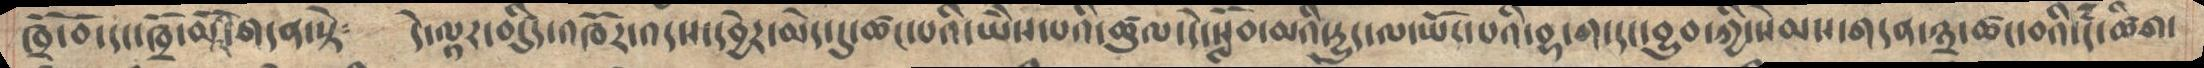ཁྲོ་བོ་དང་ཁྲོ་མོའི་གདན་སྟེ༴   དེ་ལྟར་བདུདརྩི་འཁོར་འདས་དབྱེར་མེད་དུ་ཚང་པའི་ཡཻས་པའི་ཚུལ་དེ་སློབ་མའི་དྱུད་ལ་ཡོད་པའི་བྷ་ག་དང་བྱུབ་ཀྱི་སེམས་གདན་༣་ཚང་བའི་དཾ་ཚིག་
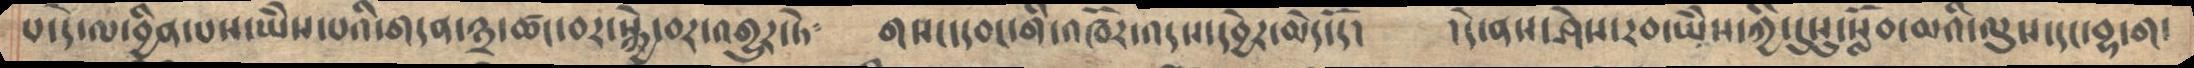པ་དེ་ལ་བྱིན་པས་ཡེེས་པའི་གདན་༣་ཚང་བར་སྐྱེ་བར་འགྱུར་ཏེ༴    གསང་དབང་གི་འཁོར་འདས་དབྱེར་མེད་དོ།    །དེ་ནས་ཤེས་རབ་ཡེེས་ཀྱི་དུསུ་སློབ་མའི་ལུས་དང་བྷ་ག་
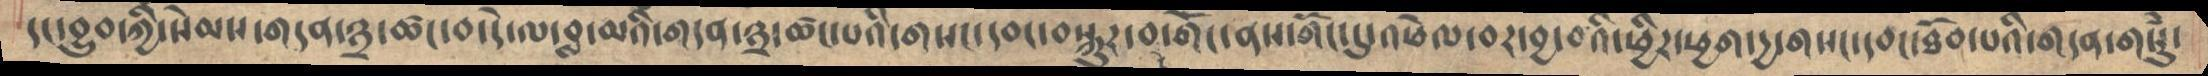དང་བྱུབ་ཀྱི་སེམས་གདན་༣༌་ཚང་བ་དེ་ལ་བླ་མའི་གདན་༣་ཚང་པའི་གསང་དབང་བསྐུར་བ་གོང་ནས་གོང་དུ་འཔེལ་བར་བྱ་བའི་ཕྱིར་ཕྱག་དྱ་གསང་དབང་ཐོབ་པའི་གདན་གསུཾ་
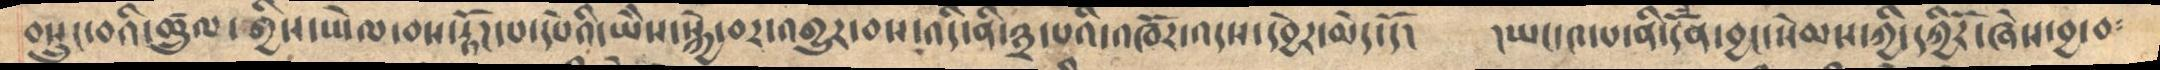བསྲུང་བའི་ཚྲུལ་གྱིས་ཡེལ་བས་རྟོཌ་པ་དཔེའི་ཡེེས་སྐྱེ་བར་འགྱུར་བས་འདི་ནི་༣་པའི་འཁོར་འདས་དབྱེར་མེད་དོ།    །ཡང་༤་པ་ནི་དོཾན་བྱང་སེམས་ཀྱི་དཀྱིོར་ཞེས་བྱ་བ༴
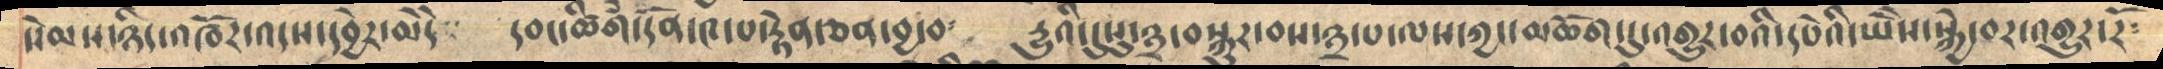སེམས་ཉིད་འཁོར་འདས་དབྱེར་མེདེ   དབང་ཚིག་དོན་༤་པ་རྟེན་ཅན་བྱ་བ༴   དྱུའི་དུསུ་༣་བསྐུར་བས་༣་པ་ལས་ཀྱང་མཆོག་དུ་འགྱུར་བའི་དཔེའི་ཡེེས་སྐྱེ་བར་འགྱུར་རོ༴
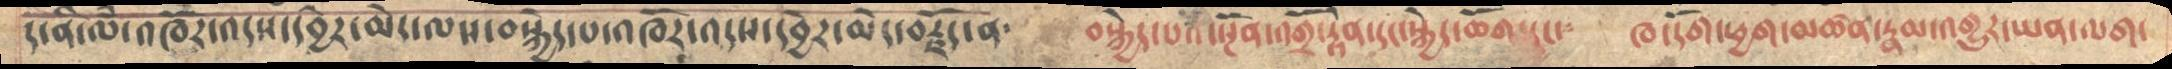ད་ནི་ལཾ་འཁོར་འདས་དབྱེར་མེད་ལས་བསྐྱེད་པ་འཁོར་འདས་དབྱེར་མེད་བརྗོད་ན༴     བསྐྱེད་པའི་སྔོན་འགྲོ་རྟེན་དང་སྐྱེད་ཆོག་དང་༴    ཁ་དོག་ཕྱག་མཚན་རྣམ་འགྱུར་ཡན་ལག་
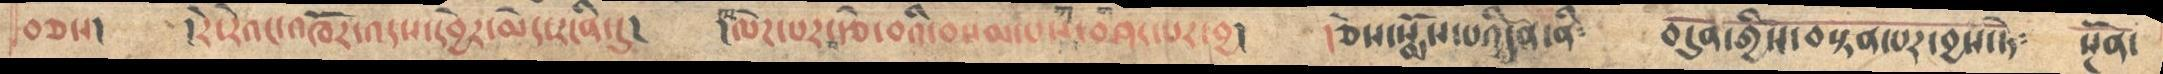བཅས།    །རེ་རེའང་འཁོར་འདས་དབྱེར་མེད་རངིན་དུ།  །ལེཌ་པར་བརྩེ་བའི་བསམ་པས་བཤད་པར་བྱ།  །ཅེས་སྨོས་པའི་དོན་ནི༴   བདུན་གྱིས་བསྟན་པར་བྱས་ཏེ༴  སྔོན་
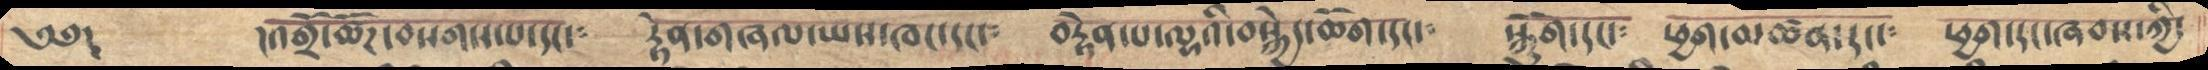༄༅།       །འགྲོ་ཚོཌ་བསགས་པ་དང་༴     རྟེན་གཞལ་ཡས་ཁང་དང་༴    བརྟེན་པ་ལྷའི་བསྐྱེད་ཆོག་དང་༴    སྐོུག་དང་༴   ཕྱག་མཚན་དང་༴    ཕྱག་དང་ཞབས་ཀྱི༴
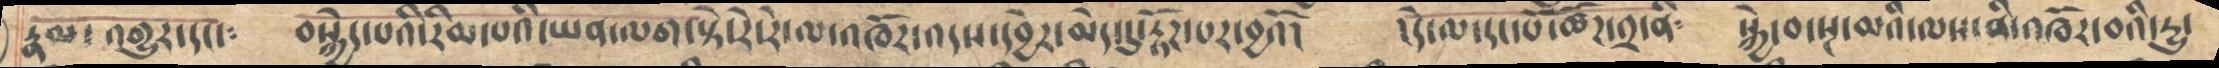རྣམ་འགྱུར་དང་༴    བསྐྱེད་པའི་རིམ་པའི་ཡན་ལག་སྟེ་རེ་རེ་ལ་འཁོར་འདས་དབྱེར་མེད་དུ་རྟོཌ་པར་བྱའོ།    །དེ་ལ་དང་པོ་ཚོཌ་༢་ནི༴    སྐྱེ་བ་སྔ་མའི་ལས་ནི་འཁོར་བའི་དྱུ་
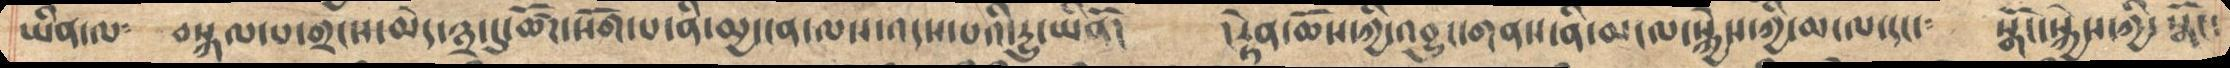ཡིན་ལ༴    བསྐལ་པ་གྲངས་མེད་༣་དུ་ཚོཌ་སོག་པ་ནི་མྱ་ངན་ལས་འདས་པའི་དྱུ་ཡིནོ།    །རྟེན་ཆོས་ཀྱི་འབྱུང་གནས་ནི་མངལ་སྐྱེས་ཀྱི་མངལ་དང་༴    སྒོང་སྐྱེས་ཀྱི་སྒོང་
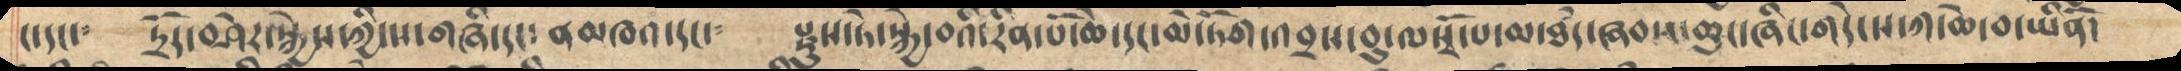ང་དང་༴    དྲོད་བཤེར་སྐྱེས་ཀྱི་ས་གཞི་དང༴ ནམཁའ་དང་༴   རྫུས་ཏེ་སྐྱེ་བའི་རིན་པོ་ཆེ་དང་མེ་ཏོག་འབྲས་བུ་ལསྭོ་པ་མ་ཐཾད་ཞབས་ཆུང་ཞིང་གདེངས་ཀ་ཆེ་བ་ཡིནོ།
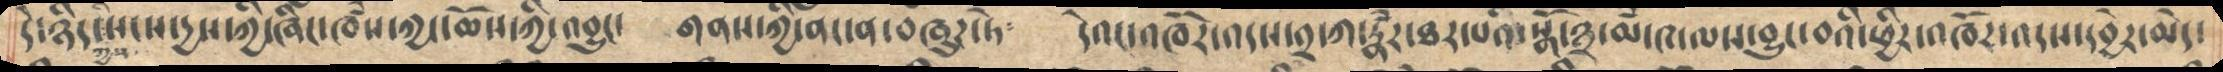དེ་ཉིད་ཀྱིས་སངས་དྱས་ཀྱི་ཞིང་ཁཾས་ཀྱང་ཆོས་ཀྱི་འབྱུང་  གནས་ཀྱི་ནང་ན་བཞུཌ་ཏེ༴  དེའང་འཁོར་འདས་༢་ཀ་རྣཾར་ཐར་པའི་སྒོ་༣་མཾ་༤་ལས་བྱུང་བའི་ཕྱིར་འཁོར་འདས་དབྱེར་མེད་
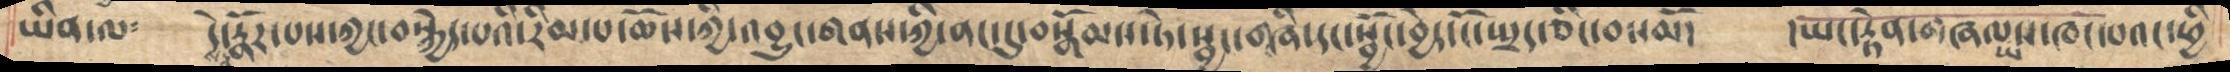ཡིན་ལ༴   དེ་ནས་རྣོར་པས་ཀྱང་བསྐྱེད་པའི་རིམ་པ་ཆོས་ཀྱི་འབྱུང་གནས་ཀྱི་ནང་དུ་བསྒོམས་ཏེ་སྦྱང་གཞི་དང་སྦྱོང་བྱེད་ངོ་སྤྲད་ཅིང་བསམོ།  །ཡང་རྟེན་གཞལ་ཡས་ཁང་པའམ་ཕྱི
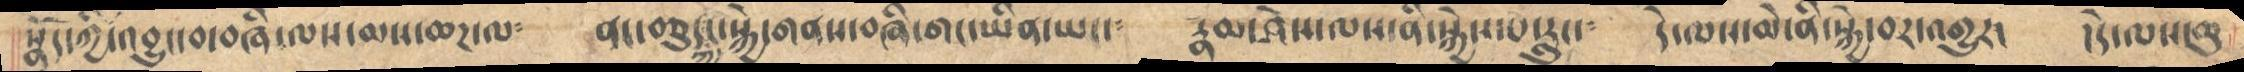སྣོད་ཀྱི་འབྱུང་བ་བཞི་ལས་མས་ཆཌ་ལ༴   ནང་བཅུད་ཀྱི་སྐྱེ་གནས་བཞི་གང་ཡིན་ཡང་༴  རྣམ་ཤེས་ལས་ནི་སྐྱེས་པ་རླུང་༴ དེ་ལས་མེ་ནི་སྐྱེ་བར་འགྱུར།  །དེ་ལས་ཆུ་
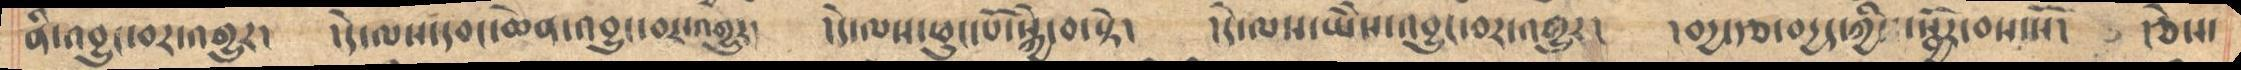ནི་འབྱུང་བར་འགྱུར།    །དེ་ལས་དབང་ཆེན་འབྱུང་བར་འགྱུར།    །དེ་ལས་ཕུང་པོ་སྐྱེ་བ་སྟེ།     །དེ་ལས་ཡེེས་འབྱུང་བར་འགྱུར།   །བདྱ་རྩ་བདྱད་ཀྱིས་སྦྱོར་བས་སོ།   །ཅེས་
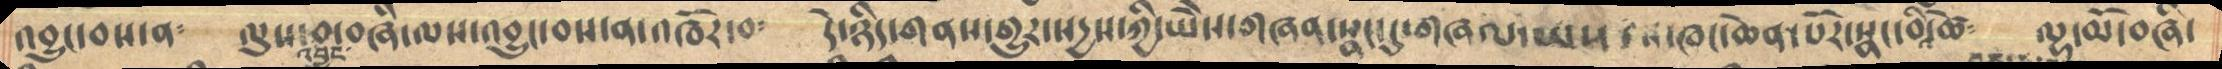འབྱུང་བས་ན༴   ལུས་འབྱུང་བ་བཞི་ལས་འབྱུང་བས་ན་འཁོར་བ༴  དེ་ཉིད་གནས་གྱུར་སདྱས་ཀྱི་ཡཻས་གཞན་སྣང་དུ་གཞལ་ཡས་ཁང་ཆེན་པོར་སྣང་བའི་ཚེ༴  ལྷ་མོ་བཞི་
